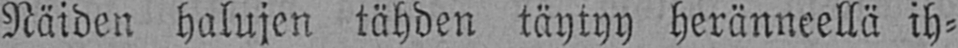Näiden halujen tähden täytyy heränneellä ih-
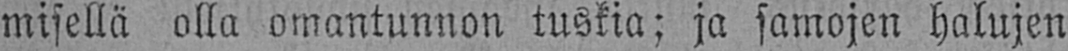misellä olla omantunnon tuskia; ja samojen halujen
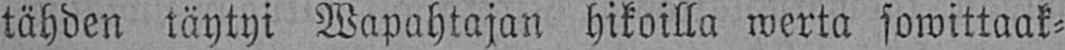tähden täytyi Wapahtajan hikoilla werta sowittaak-
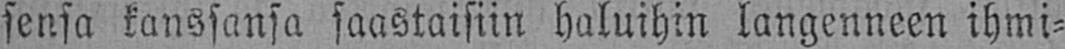sensa kanssansa saastaisiin haluihin langenneen ihmi-
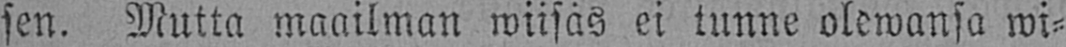sen. Mutta maailman wiisas ei tunne olewansa wi-
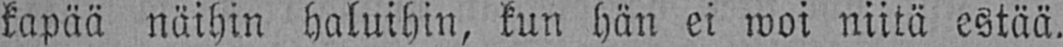kapää näihin haluihin, kun hän ei woi niitä estää.
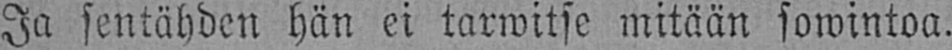Ja sentähden hän ei tarwitse mitään sowintoa.
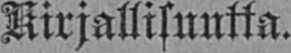Kirjallisuutta.
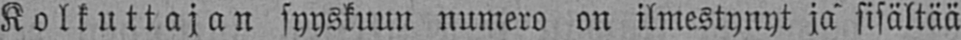Kolkuttajan syyskuun numero on ilmestynyt ja sisältää
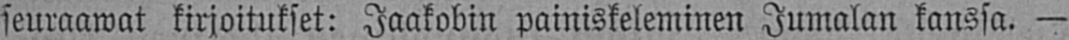seuraawat kirjoitukset: Jaakobin painiskeleminen Jumalan kanssa. —
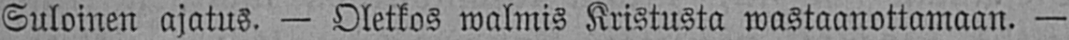Suloinen ajatus. — Oletkos walmis Kristusta wastaanottamaan. —
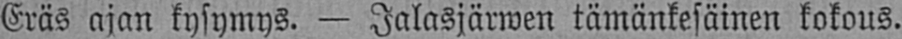Eräs ajan kysymys. - Jalasjärwen tämänkesäinen kokous.
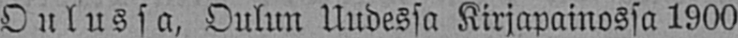Oulussa, Oulun Uudessa Kirjapainossa 1900.
